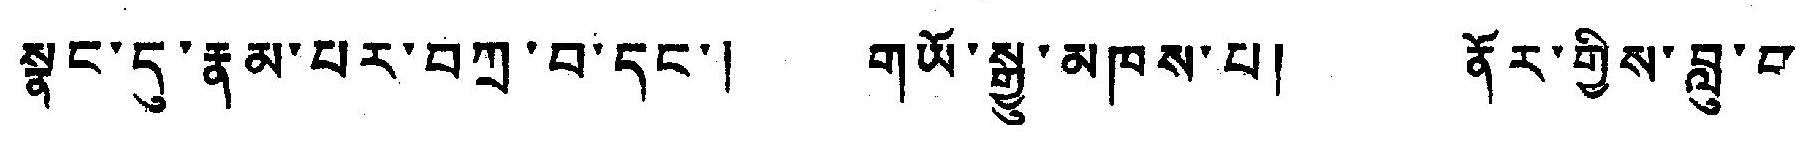སྣང་དུ་རྣམ་པར་བཀྲ་བ་དང་། གཡོ་སྒྱུ་མཁས་པ། ནོར་གྱིས་བླུ་བ་
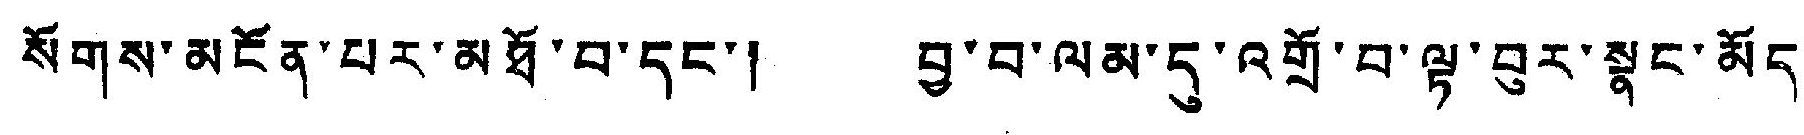སོགས་མངོན་པར་མཐོ་བ་དང་། བྱ་བ་ལམ་དུ་འགྲོ་བ་ལྟ་བུར་སྣང་མོད་
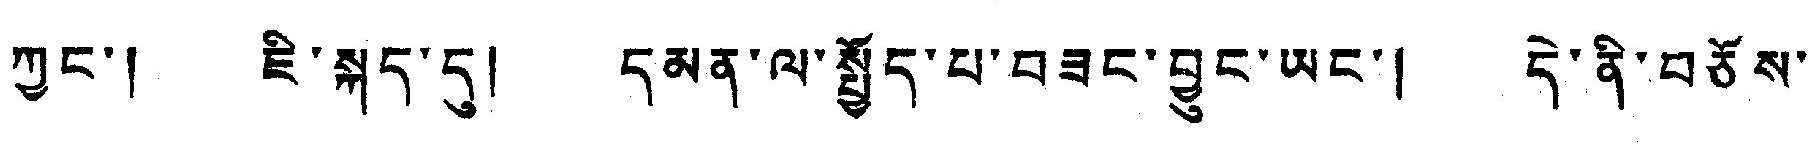ཀྱང་། ཇི་སྐད་དུ། དམན་ལ་སྤྱོད་པ་བཟང་བྱུང་ཡང་། དེ་ནི་བཅོས་
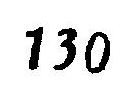130
